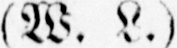(W. L.)
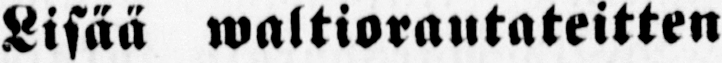— Lisää waltiorautateitten
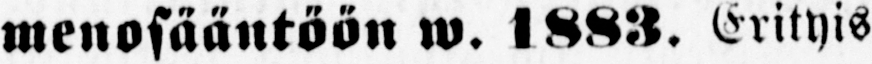menosääntöön w. 1883. Erityis-
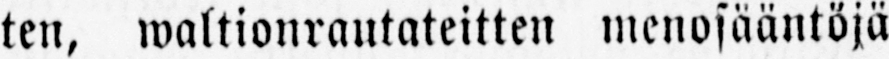ten, waltionrautateitten menosääntöjä
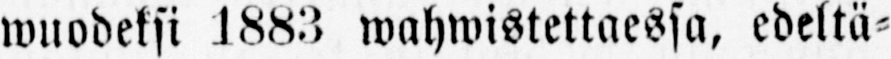wuodeksi wahwistettaessa, edeltä-
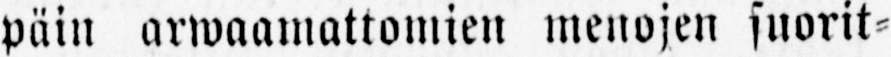päin arwaamattomien menojen suorit-
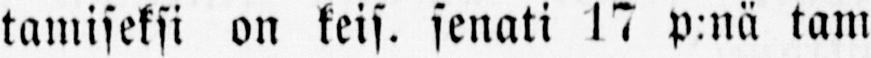tamiseksi on keis. senati 17 p:nä tam-
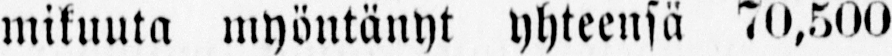mikuuta myöntänyt yhteensä 70,500
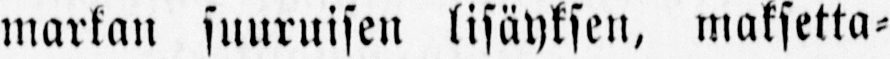markan suuruisen lisäyksen, maksetta-
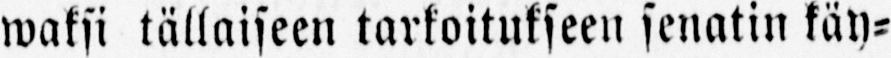waksi tällaiseen tarkoitukseen senatin käy-
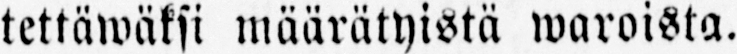tettäwäksi määrätyistä waroista.
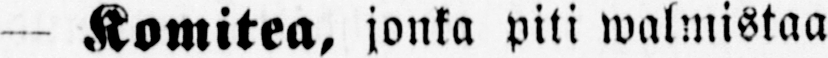— Komitea, jonka piti walmistaa
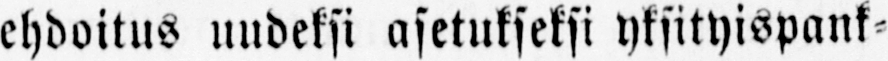ehdoitus uudeksi asetukseksi yksityispank-
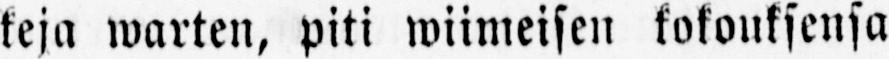keja warten, piti wiimeisen kokouksensa
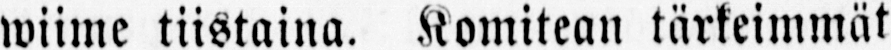wiime tiistaina. Komitean tärkeimmät
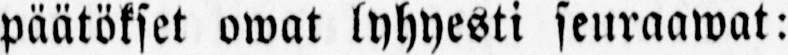päätökset owat lyhyesti seuraawat:
